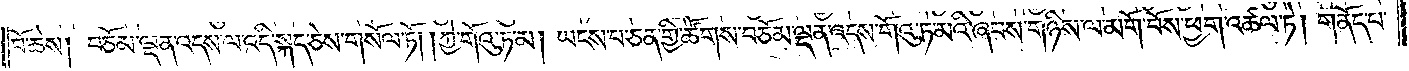བོ་ཆེས། བཅོམ་ལྡན་འདས་ལ་འདི་སྐད་ཅེས་གསོལ་ཏོ། །ཀྱེ་གོའུ་ཏ་མ། ཡངས་པ་ཅན་གྱི་ཚོགས་བཅོམ་ལྡན་འདས་གོའུ་ཏ་མའི་ཞབས་གཉིས་ལ་མགོ་བོས་ཕྱག་འཚལ་ཏེ། གནོད་པ་
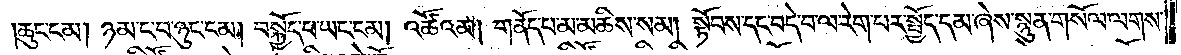ཆུང་ངམ། ཉམ་ང་བ་ཉུང་ངམ། བསྐྱོད་པ་ཡང་ངམ། འཚོའམ། གནོད་པ་མ་མཆིས་སམ། སྟོབས་དང་བདེ་བ་ལ་རེག་པར་སྤྱོད་དམ་ཞེས་སྙུན་གསོལ་ལགས་
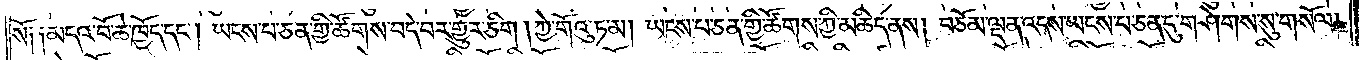སོ༑ ༑མདའ་བོ་ཆེ་ཁྱོད་དང༌། ཡངས་པ་ཅན་གྱི་ཚོགས་བདེ་བར་གྱུར་ཅིག །ཀྱེ་གོའུ་ཏ་མ། ཡངས་པ་ཅན་གྱི་ཚོགས་ཀྱི་མཆིད་ནས། བཅོམ་ལྡན་འདས་ཡངས་པ་ཅན་དུ་གཤེགས་སུ་གསོལ།
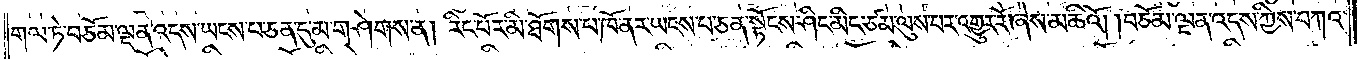གལ་ཏེ་བཅོམ་ལྡན་འདས་ཡངས་པ་ཅན་དུ་མ་གཤེགས་ན། རིང་པོར་མི་ཐོགས་པ་ཁོ་ནར་ཡངས་པ་ཅན་སྟོང་ཤིང་མིང་ཙམ་ལུས་པར་འགྱུར་རོ་ཞེས་མཆིའོ། །བཅོམ་ལྡན་འདས་ཀྱིས་བཀའ་
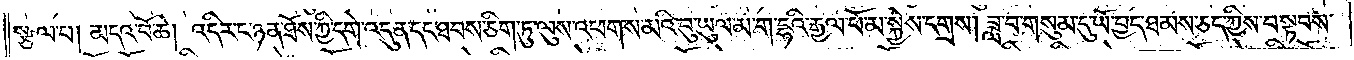སྩལ་པ། མདའ་བོ་ཆེ། འདིར་ང་ཉན་ཐོས་ཀྱི་དགེ་འདུན་དང་ཐབས་ཅིག་ཏུ་ལུས་འཕགས་མའི་བུ་ཡུལ་མ་ག་དྷའི་རྒྱལ་པོ་མ་སྐྱེས་དགྲས། ཟླ་བ་གསུམ་དུ་ཡོ་བྱད་ཐམས་ཅད་ཀྱིས་བསྟབས་
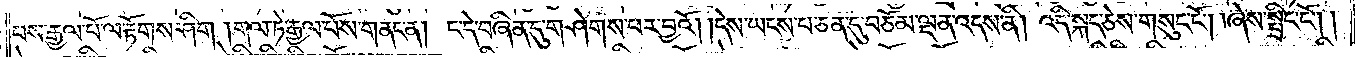པས་རྒྱལ་པོ་ལ་རྟོགས་ཤིག །གལ་ཏེ་རྒྱལ་པོས་གནང་ན། ང་དེ་བཞིན་དུ་གཤེགས་པར་བྱའོ། །དེས་ཡངས་པ་ཅན་དུ་བཅོམ་ལྡན་འདས་ནི། འདི་སྐད་ཅེས་གསུང་ངོ༌། །ཞེས་སྤྲིང་ངོ༌། །
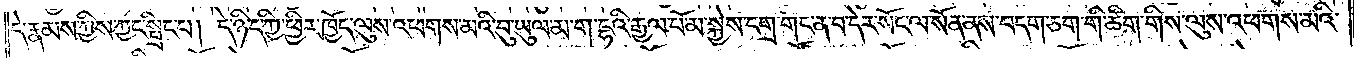དེ་རྣམས་ཀྱིས་ཀྱང་སྤྲིང་པ། དེ་ཉིད་ཀྱི་ཕྱིར་ཁྱོད་ལུས་འཕགས་མའི་བུ་ཡུལ་མ་ག་དྷའི་རྒྱལ་པོ་མ་སྐྱེས་དགྲ་གང་ན་བ་དེར་སོང་ལ་སོན་ནས་བདག་ཅག་གི་ཚིག་གིས་ལུས་འཕགས་མའི་
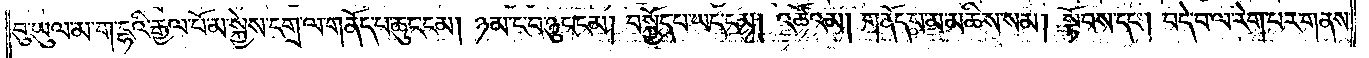བུ་ཡུལ་མ་ག་དྷའི་རྒྱལ་པོ་མ་སྐྱེས་དགྲ་ལ་གནོད་པ་ཆུང་ངམ། ཉམ་ང་བ་ཉུང་ངམ། བསྐྱོད་པ་ཡང་ངམ། འཚོའམ། གནོད་པ་མ་མཆིས་སམ། སྟོབས་དང༌། བདེ་བ་ལ་རེག་པར་གནས་
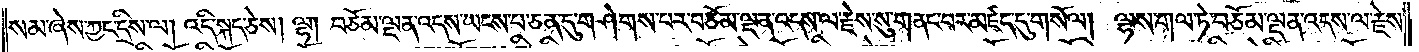སམ་ཞེས་ཀྱང་དྲིས་ལ། འདི་སྐད་ཅེས། ལྷ། བཅོམ་ལྡན་འདས་ཡངས་པ་ཅན་དུ་གཤེགས་པར་བཅོམ་ལྡན་འདས་ལ་རྗེས་སུ་གནང་བར་མཛད་དུ་གསོལ། ལྷས་གལ་ཏེ་བཅོམ་ལྡན་འདས་ལ་རྗེས་
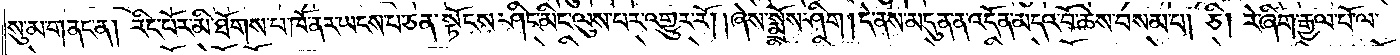སུ་མ་གནང་ན། རིང་པོར་མི་ཐོགས་པ་ཁོ་ནར་ཡངས་པར་ཅན་སྟོངས་ཤིང་མིང་ལུས་པར་འགྱུར་རོ། །ཞེས་སྨྲོས་ཤིག །དེ་ནས་མདུན་ན་འདོན་མདའ་བོ་ཆེས་བསམ་པ། ཅི། རེ་ཞིག་རྒྱལ་པོ་ལ་
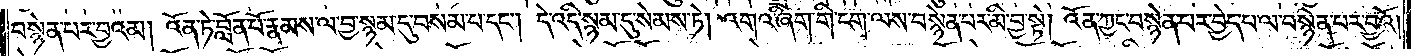བསྙེན་པར་བྱའམ། འོན་ཏེ་བློན་པོ་རྣམས་ལ་བྱ་སྙམ་དུ་བསམ་པ་དང༌། དེ་འདི་སྙམ་དུ་སེམས་ཏེ། འགའ་ཞིག་གི་ངག་ལས་བསྙེན་པར་མི་བྱ་སྟེ། འོན་ཀྱང་བསྙེན་པར་བྱེད་པ་ལ་བསྙེན་པར་བྱའོ།
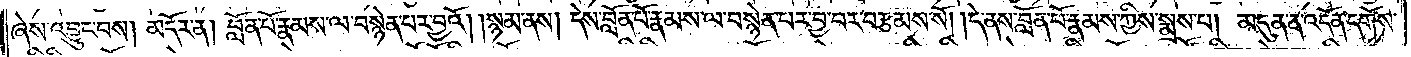ཞེས་འབྱུང་བས། མདོར་ན། བློན་པོ་རྣམས་ལ་བསྙེན་པར་བྱའོ། །སྙམ་ནས། དེས་བློན་པོ་རྣམས་ལ་བསྙེན་པར་བྱ་བར་བརྩམས་སོ། །དེ་ནས་བློན་པོ་རྣམས་ཀྱིས་སྨྲས་པ། མདུན་ན་འདོན་དགོས་
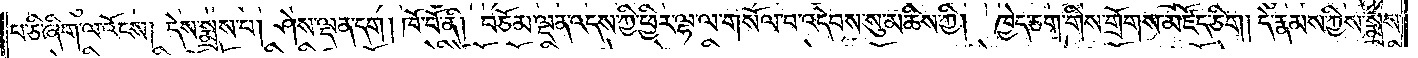པ་ཅི་ཞིག་ལ་འོངས། དེས་སྨྲས་པ། ཤེས་ལྡན་དག། ཁོ་བོ་ནི། བཅོམ་ལྡན་འདས་ཀྱི་ཕྱིར་ལྷ་ལ་གསོལ་བ་འདེབས་སུ་མཆིས་ཀྱི། ཁྱེད་ཅག་གིས་གྲོགས་མཛོད་ཅིག །དེ་རྣམས་ཀྱིས་སྨྲས་
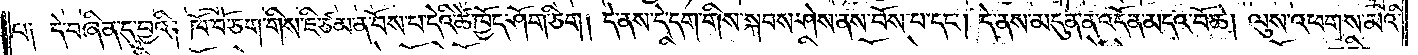པ༑ དེ་བཞིན་དུ་བྱའི། ཁོ་བོ་ཅག་གིས་ཇི་ཙམ་ན་བོས་པ་དེའི་ཚེ་ཁྱོད་ཤོག་ཅིག། དེ་ནས་དེ་དག་གིས་སྐབས་ཤེས་ནས་བོས་པ་དང༌། དེ་ནས་མདུན་ན་འདོན་མདའ་བོ་ཆེ། ལུས་འཕགས་མའི་
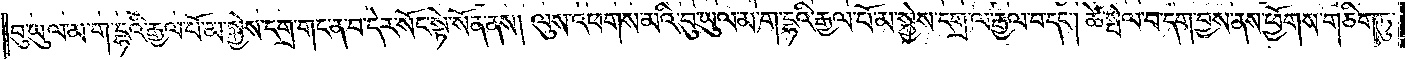བུ་ཡུལ་མ་ག་དྷའི་རྒྱལ་པོ་མ་སྐྱེས་དགྲ་གང་ན་བ་དེར་སོང་སྟེ་སོན་ནས། ལུས་འཕགས་མའི་བུ་ཡུལ་མ་ག་དྷའི་རྒྱལ་པོ་མ་སྐྱེས་དགྲ་ལ་རྒྱལ་བ་དང༌། ཚེ་སྤེལ་བ་དག་བྱས་ནས་ཕྱོགས་གཅིག་ཏུ་
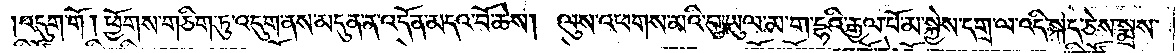འདུག་གོ །ཕྱོགས་གཅིག་ཏུ་འདུག་ནས་མདུན་ན་འདོན་མདའ་བོ་ཆེས། ལུས་འཕགས་མའི་བུ་ཡུལ་མ་ག་དྷའི་རྒྱལ་པོ་མ་སྐྱེས་དགྲ་ལ་འདི་སྐད་ཅེས་སྨྲས་
